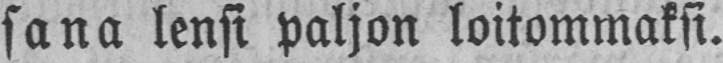sana lensi paljon loitommaksi.
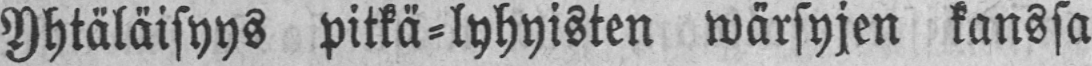Yhtäläisyys pitkä-lyhyisten wärsyjen kanssa
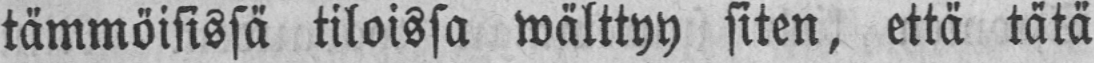tämmöisissä tiloissa wälttyy siten, että tätä
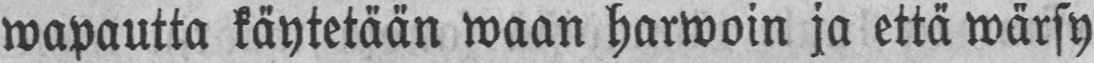wapautta käytetään waan harwoin ja että wärsy
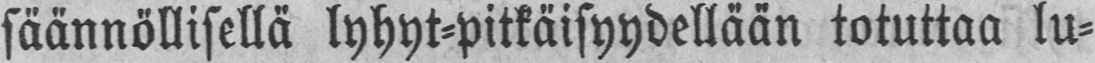säännöllisellä lyhyt-pitkäisyydellään totuttaa lu-
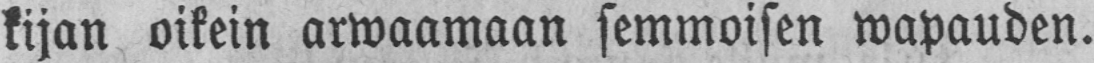kijan oikein arwaamaan semmoisen wapauden.
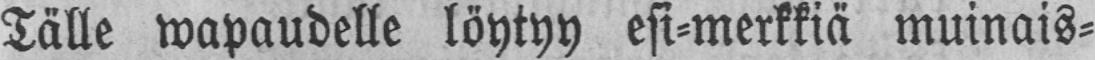Tälle wapaudelle löytyy esi-merkkiä muinais-
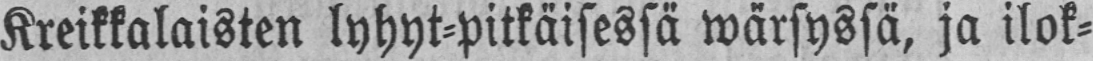Kreikkalaisten lyhyt-pitkäisessä wärsyssä, ja ilok-
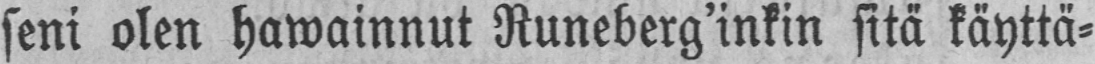seni olen hawainnut Runeberg'inkin sitä käyttä-
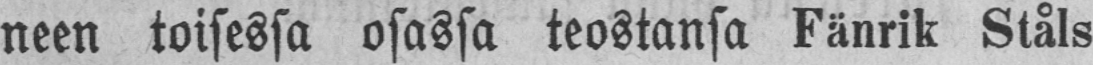neen toisessa osassa teostansa Ståls
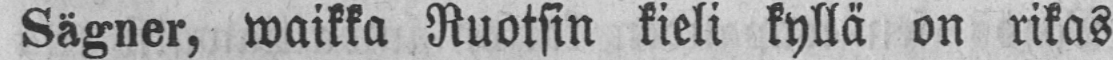Sägner, waikka Ruotsin kieli kyllä on rikas
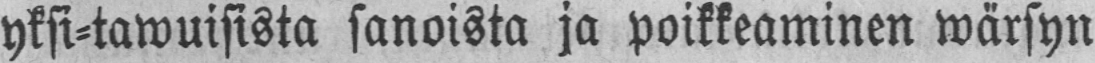yksi-tawuisista sanoista ja poikkeaminen wärsyn
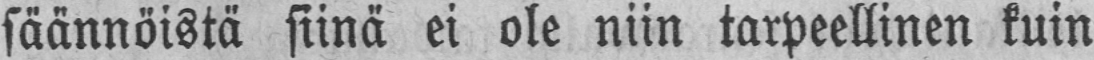säännöistä siinä ei ole niin tarpeellinen kuin
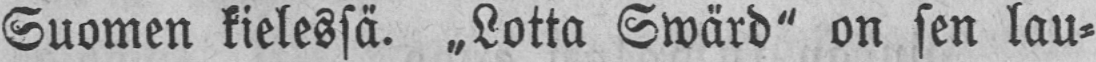Suomen kielessä. ˶Lotta Swärd" on sen lau-
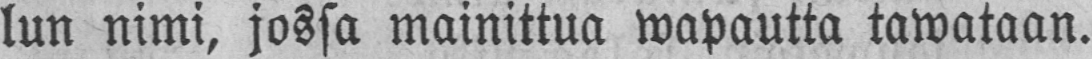lun nimi, jossa mainittua wapautta tawataan.
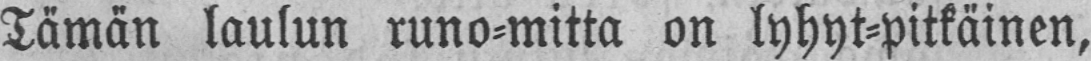Tämän laulun runo-mitta on lyhyt-pitkäinen,
